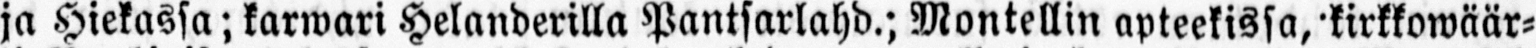ja Hiekassa; karwari Helanderilla Pantsarlahd.; Montellin apteekissa, kirkkowäär-
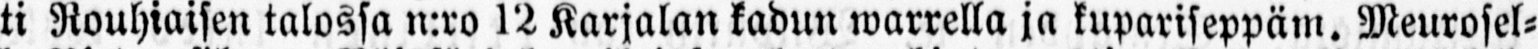ti Rouhiaisen talossa n:ro 12 Karjalan kadun warrella ja kupariseppäm. Meurosel-
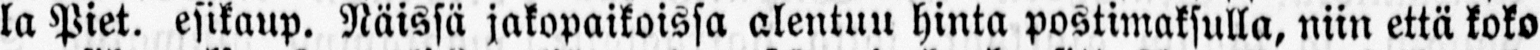la Piet. esikaup. Näissä jakopaikoissa alentuu hinta postimaksulla, niin että koko
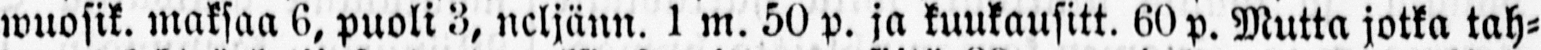wuosik. maksaa 6, puoli 3, neljänn. 1 m. 50 p. ja kuukausitt. 60 p. Mutta jotka tah-
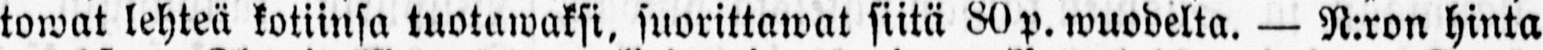toiwat lehteä kotiinsa tuotawaksi, suorittawat siitä 80p. wuodelta. — N:ron hinta
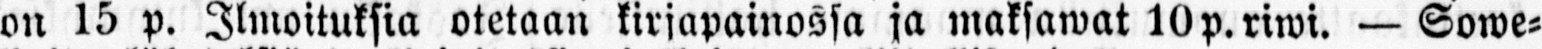on 15 p. Ilmoituksia otetaan kirjapainossa ja maksawat 10 p.riwi. — Sowe-
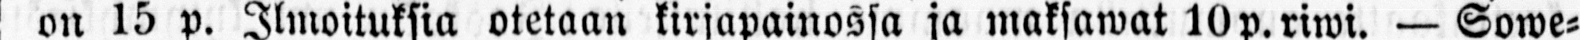liaita lähetyksiä ja kirjoituksia julkaistaan. kiitollisuudella.
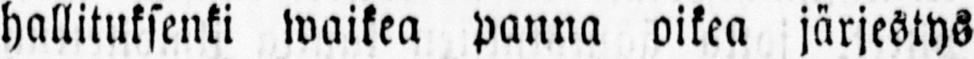hallituksenki waikea panna oikea järjestys
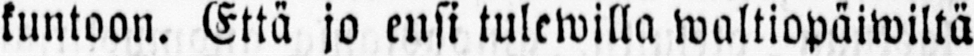kuntoon. Että jo ensi tulewilla waltiopäiwiltä
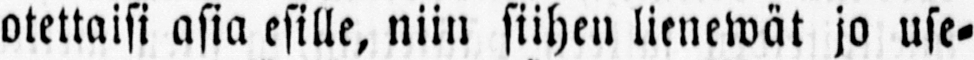otettaisi asia esille, niin siihen lienewät jo use-
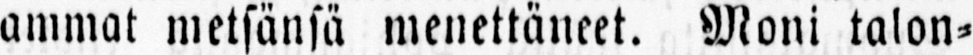ammat metsänsä menettäneet. Moni talon-
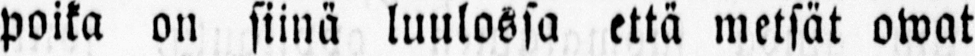poika on siinä luulossa että metsät owat
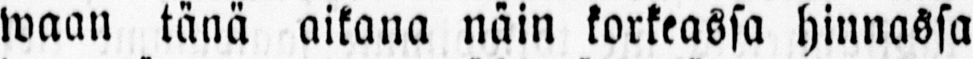waan tänä aikana näin korkeassa hinnassa
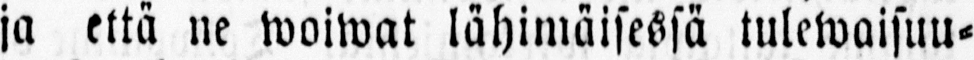ja että ne woiwat lähimäisessä tulewaisuu-
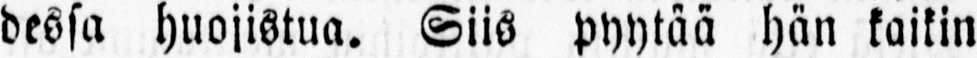dessa huojistua. Siis pyytää hän kaikin
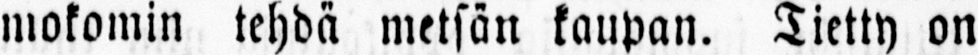mokomin tehdä metsän kaupan. Tietty on
